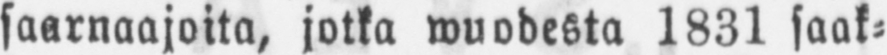saarnaajoita, jotka wuodesta 1831 saak-
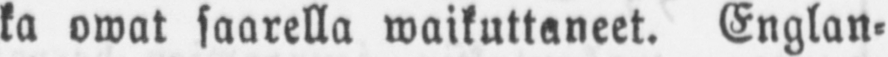ka owat saarella waikuttaneet. Englan-
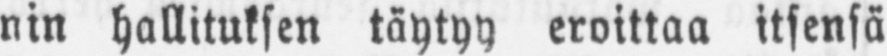nin hallituksen täytyy eroittaa itsensä
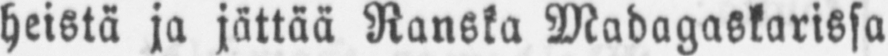heistä ja jättää Ranska Madagaskarissa
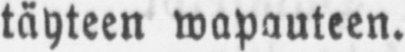täyteen wapauteen.
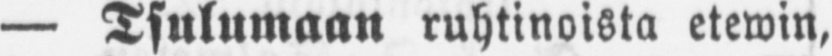— Tsulumaan ruhtinoista etewin,
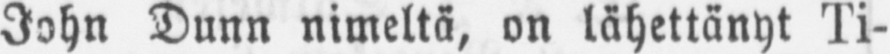John Dunn nimeltä, on lähettänyt Ti-
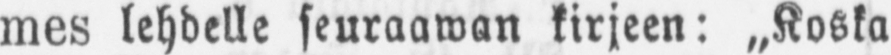mes lehdelle seuraawan kirjeen: „Koska
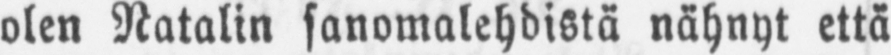olen Natalin sanomalehdistä nähnyt että
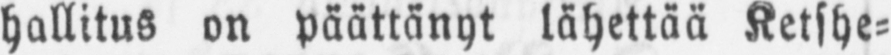hallitus on päättänyt lähettää Ketshe-
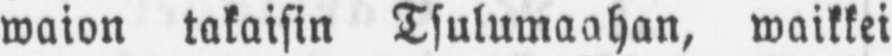waion takaisin Tsulumaahan, waikkei
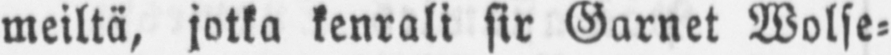meiltä, jotka kenrali sir Garnet Wolse-
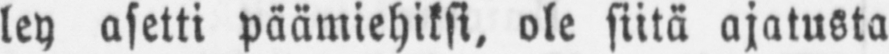ley asetti päämiehiksi, ole siitä ajatusta
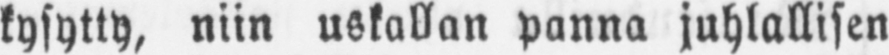kysytty, niin uskallan panna juhlallisen
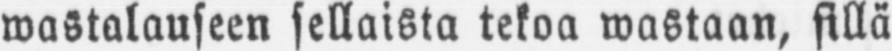wastalauseen sellaista tekoa wastaan, sillä
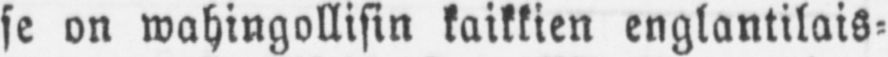se on wahingollisin kaikkien englantilais-
